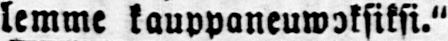lemme kauppaneuwoksiksi."
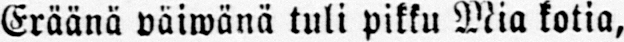Eräänä päiwänä tuli pikku Mia kotia,
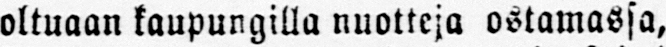oltuaan kaupungilla nuotteja ostamassa,
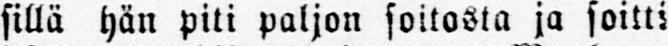sillä hän piti paljon soitosta ja soitti
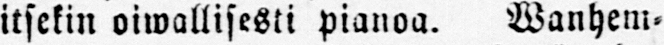itsekin oiwallisesti pianoa. Wanhem-
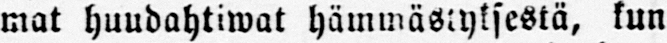mat huudahtiwat hämmästyksestä, kun
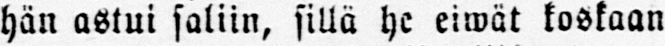hän astui saliin, sillä he eiwät koskaan
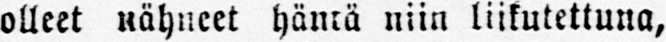olleet nähneet häntä niin liikutettuna,
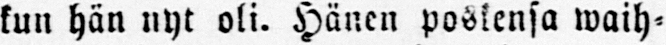kun hän nyt oli. Hänen poskensa waih-
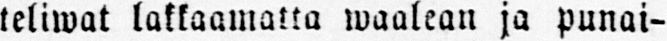teliwat lakkaamatta waalean ja punai-
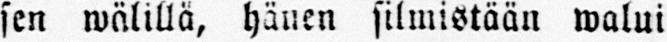sen wälillä, hänen silmistään walui
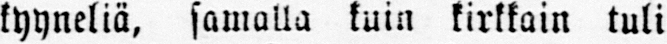kyyneliä, samalla kuin kirkkain tuli
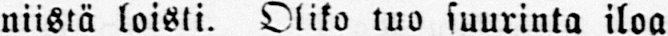niistä loisti. Oliko tuo suurinta iloa
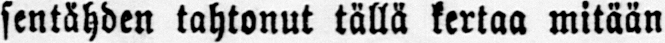sentähden tahtonut tällä kertaa mitään
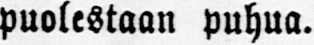puolestaan puhua.
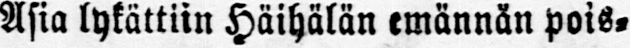Asia lykättiin Häihälän emännän pois-
